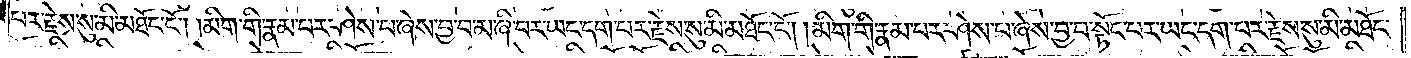པར་རྗེས་སུ་མི་མཐོང་ངོ༌། །མིག་གི་རྣམ་པར་ཤེས་པ་ཞེས་བྱ་བ་མ་ཞི་བར་ཡང་དག་པར་རྗེས་སུ་མི་མཐོང་ངོ༌། །མིག་གི་རྣམ་པར་ཤེས་པ་ཞེས་བྱ་བ་སྟོང་པར་ཡང་དག་པར་རྗེས་སུ་མི་མཐོང་
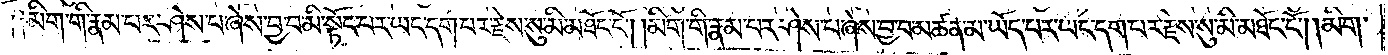ངོ༑ ༑མིག་གི་རྣམ་པར་ཤེས་པ་ཞེས་བྱ་བ་མི་སྟོང་པར་ཡང་དག་པར་རྗེས་སུ་མི་མཐོང་ངོ༌། །མིག་གི་རྣམ་པར་ཤེས་པ་ཞེས་བྱ་བ་མཚན་མ་ཡོད་པར་ཡང་དག་པར་རྗེས་སུ་མི་མཐོང་ངོ༌། །མིག་
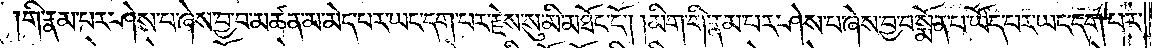གི་རྣམ་པར་ཤེས་པ་ཞེས་བྱ་བ་མཚན་མ་མེད་པར་ཡང་དག་པར་རྗེས་སུ་མི་མཐོང་ངོ༌། །མིག་གི་རྣམ་པར་ཤེས་པ་ཞེས་བྱ་བ་སྨོན་པ་ཡོད་པར་ཡང་དག་པར་
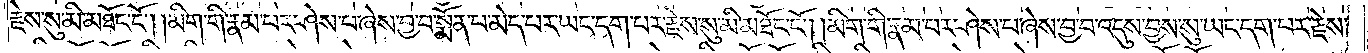རྗེས་སུ་མི་མཐོང་ངོ༌། །མིག་གི་རྣམ་པར་ཤེས་པ་ཞེས་བྱ་བ་སྨོན་པ་མེད་པར་ཡང་དག་པར་རྗེས་སུ་མི་མཐོང་ངོ༌། །མིག་གི་རྣམ་པར་ཤེས་པ་ཞེས་བྱ་བ་འདུས་བྱས་སུ་ཡང་དག་པར་རྗེས་
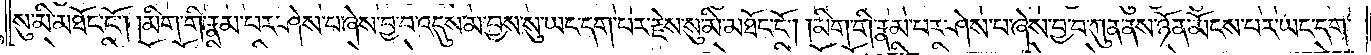སུ་མི་མཐོང་ངོ༌། །མིག་གི་རྣམ་པར་ཤེས་པ་ཞེས་བྱ་བ་འདུས་མ་བྱས་སུ་ཡང་དག་པར་རྗེས་སུ་མི་མཐོང་ངོ༌། །མིག་གི་རྣམ་པར་ཤེས་པ་ཞེས་བྱ་བ་ཀུན་ནས་ཉོན་མོངས་པར་ཡང་དག་
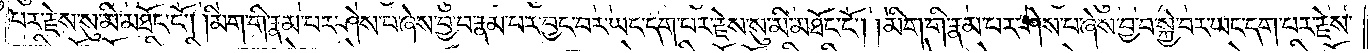པར་རྗེས་སུ་མི་མཐོང་ངོ༌། །མིག་གི་རྣམ་པར་ཤེས་པ་ཞེས་བྱ་བ་རྣམ་པར་བྱང་བར་ཡང་དག་པར་རྗེས་སུ་མི་མཐོང་ངོ༌། །མིག་གི་རྣམ་པར་ཤེས་པ་ཞེས་བྱ་བ་སྐྱེ་བར་ཡང་དག་པར་རྗེས་
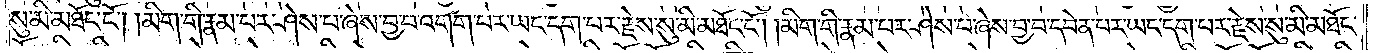སུ་མི་མཐོང་ངོ༌། །མིག་གི་རྣམ་པར་ཤེས་པ་ཞེས་བྱ་བ་འགག་པར་ཡང་དག་པར་རྗེས་སུ་མི་མཐོང་ངོ༌། །མིག་གི་རྣམ་པར་ཤེས་པ་ཞེས་བྱ་བ་དབེན་པར་ཡང་དག་པར་རྗེས་སུ་མི་མཐོང་
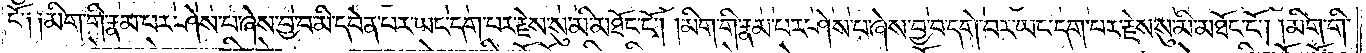ངོ༑ ༑མིག་གི་རྣམ་པར་ཤེས་པ་ཞེས་བྱ་བ་མི་དབེན་པར་ཡང་དག་པར་རྗེས་སུ་མི་མཐོང་ངོ༌། །མིག་གི་རྣམ་པར་ཤེས་པ་ཞེས་བྱ་བ་དགེ་བར་ཡང་དག་པར་རྗེས་སུ་མི་མཐོང་ངོ༌། །མིག་གི་
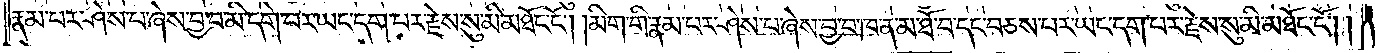རྣམ་པར་ཤེས་པ་ཞེས་བྱ་བ་མི་དགེ་བར་ཡང་དག་པར་རྗེས་སུ་མི་མཐོང་ངོ༌། །མིག་གི་རྣམ་པར་ཤེས་པ་ཞེས་བྱ་བ་ཁ་ན་མ་ཐོ་བ་དང་བཅས་པར་ཡང་དག་པར་རྗེས་སུ་མི་མཐོང་ངོ༌། །
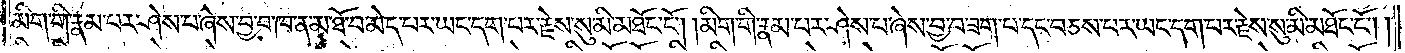མིག་གི་རྣམ་པར་ཤེས་པ་ཞེས་བྱ་བ་ཁ་ན་མ་ཐོ་བ་མེད་པར་ཡང་དག་པར་རྗེས་སུ་མི་མཐོང་ངོ༌། །མིག་གི་རྣམ་པར་ཤེས་པ་ཞེས་བྱ་བ་ཟག་པ་དང་བཅས་པར་ཡང་དག་པར་རྗེས་སུ་མི་མཐོང་ངོ༌། །
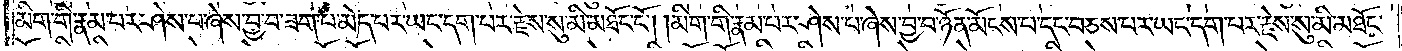མིག་གི་རྣམ་པར་ཤེས་པ་ཞེས་བྱ་བ་ཟག་པ་མེད་པར་ཡང་དག་པར་རྗེས་སུ་མི་མཐོང་ངོ༌། །མིག་གི་རྣམ་པར་ཤེས་པ་ཞེས་བྱ་བ་ཉོན་མོངས་པ་དང་བཅས་པར་ཡང་དག་པར་རྗེས་སུ་མི་མཐོང་
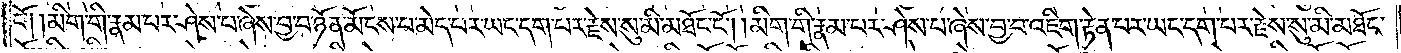ངོ༑ །མིག་གི་རྣམ་པར་ཤེས་པ་ཞེས་བྱ་བ་ཉོན་མོངས་པ་མེད་པར་ཡང་དག་པར་རྗེས་སུ་མི་མཐོང་ངོ༌། །མིག་གི་རྣམ་པར་ཤེས་པ་ཞེས་བྱ་བ་འཇིག་རྟེན་པར་ཡང་དག་པར་རྗེས་སུ་མི་མཐོང་
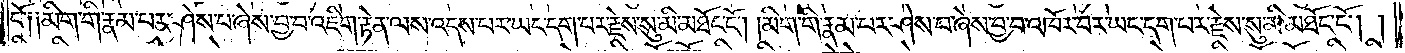ངོ༑ ༑མིག་གི་རྣམ་པར་ཤེས་པ་ཞེས་བྱ་བ་འཇིག་རྟེན་ལས་འདས་པར་ཡང་དག་པར་རྗེས་སུ་མི་མཐོང་ངོ༌། །མིག་གི་རྣམ་པར་ཤེས་པ་ཞེས་བྱ་བ་འཁོར་བར་ཡང་དག་པར་རྗེས་སུ་མི་མཐོང་ངོ༌། །
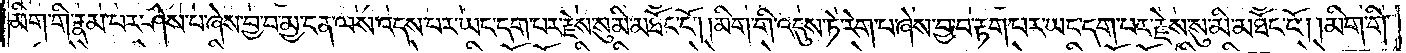མིག་གི་རྣམ་པར་ཤེས་པ་ཞེས་བྱ་བ་མྱ་ངན་ལས་འདས་པར་ཡང་དག་པར་རྗེས་སུ་མི་མཐོང་ངོ༌། །མིག་གི་འདུས་ཏེ་རེག་པ་ཞེས་བྱ་བ་རྟག་པར་ཡང་དག་པར་རྗེས་སུ་མི་མཐོང་ངོ༌། །མིག་གི་
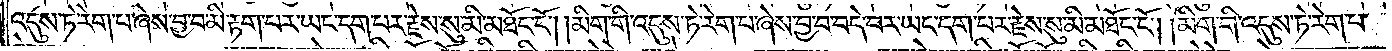འདུས་ཏེ་རེག་པ་ཞེས་བྱ་བ་མི་རྟག་པར་ཡང་དག་པར་རྗེས་སུ་མི་མཐོང་ངོ༌། །མིག་གི་འདུས་ཏེ་རེག་པ་ཞེས་བྱ་བ་བདེ་བར་ཡང་དག་པར་རྗེས་སུ་མི་མཐོང་ངོ༌། །མིག་གི་འདུས་ཏེ་རེག་པ་
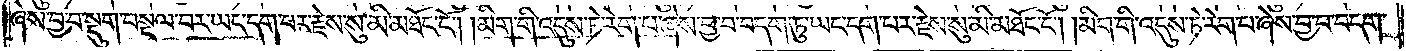ཞེས་བྱ་བ་སྡུག་བསྔལ་བར་ཡང་དག་པར་རྗེས་སུ་མི་མཐོང་ངོ༌། །མིག་གི་འདུས་ཏེ་རེག་པ་ཞེས་བྱ་བ་བདག་ཏུ་ཡང་དག་པར་རྗེས་སུ་མི་མཐོང་ངོ༌། །མིག་གི་འདུས་ཏེ་རེག་པ་ཞེས་བྱ་བ་བདག་
